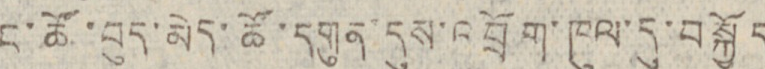ང་ཚོ་བུད་མེད་ཚོ་དགུན་དུས་འབྲོག་ཁུལ་དུ་བསྐྱོད
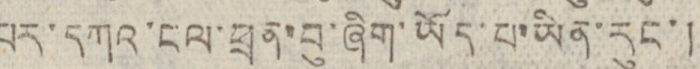པར་དཀའ་ངལ་ཕྲན་བུ་ཞིག་ཡོད་པ་ཡིན་རུང་།
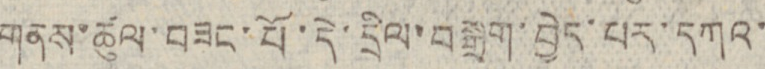གནས་ཚུལ་བཟང་པོ་དེ་དྲིལ་བསྒྲག་བྱེད་པར་དཀའ་
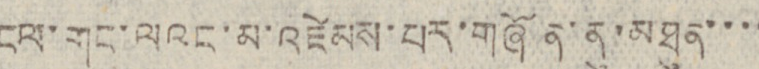ངལ་གང་ལའང་མ་འཛེམས་པར་གཞོན་ནུ་མཐུན་་་་
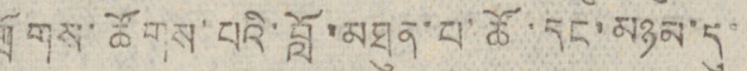གྲོགས་ཚོགས་པའི་བློ་མཐུན་པ་ཚོ་དང་མཉམ་དུ་་
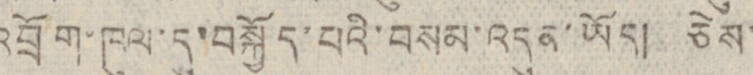འབྲོག་ཁུལ་དུ་བསྐྱོད་པའི་བསམ་འདུན་ཡོད། ཅེས་
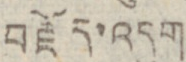བརྗོད་འདུག
